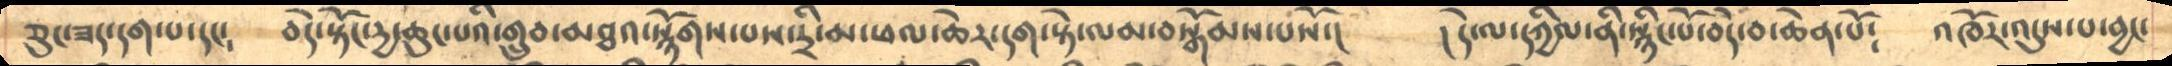ཅུང་ཟད་དག་པ་དང༴   བདེ་སྟོང་དྱ་ཆུང་པའི་གྲུབ་མཐའ་སྙོགས་པས་དྲི་མ་ཕལ་ཆེར་དག་སྟེ་ལམ་བསྒོམས་པསོ་།      ། དེ་ལ་དཀྱིལ་ནི་སྙིང་པོ་བདེ་བ་ཆེན་པོ༴   འཁོར་འདུས་པ་བྱང་
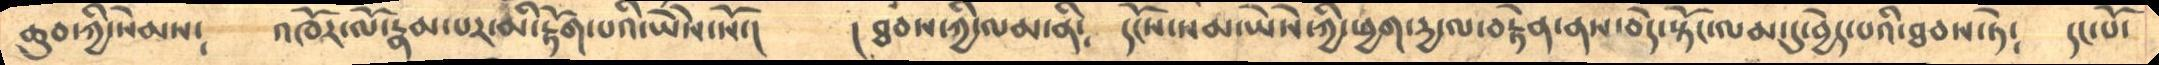ཆུབ་ཀྱི་སེམས༴   འཁོར་ལོ་རྣམ་པར་མི་རྟོག་པའི་ཡེསེ་སོ་།    ། ཐབས་ཀྱི་ལམ་ནི༴    དངོས་སམ་ཡེསེ་ཀྱི་ཕྱག་དྱུ་ལ་བརྟེན་ནས་བདེ་སྟོང་ལམ་དུ་བྱེད་པའི་ཐབས་ཏེ༴   དང་པོ་
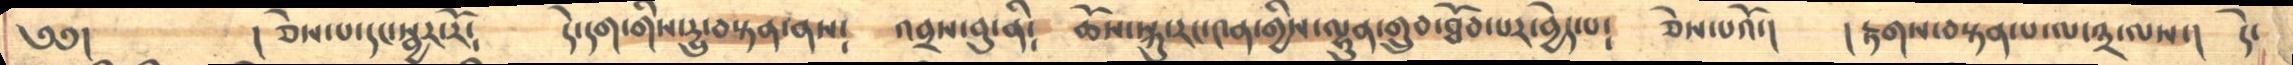༄༅།           ། ཅེས་པ་དང་སྦྱར་རོ༴    དེ་དག་གིས་དྱུ་བསྟན་ནས༴   འབྲས་བུ་ནི༴  ཆོས་སྐུ་རང་༤ན་གྱིས་ལྷུན་གྲུབ་ཐོབ་པར་བྱེད་པ༴  ཅེས་པའོ་།   ། རྟགས་བསྟན་པ་ལ་༣་ལས་།  དེ་
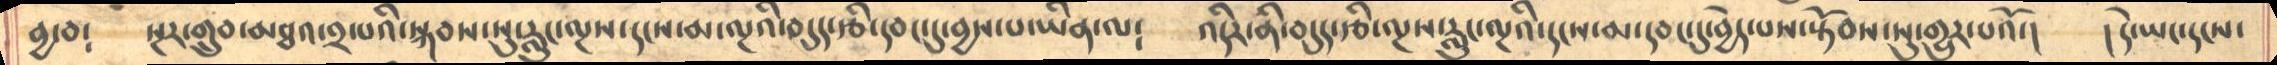བྱ་བ༴   སྔར་གྲུབ་མཐའ་༢་པའི་སྐབས་སུ་རླུང་ལྔས་དངས་མ་ལྔའི་བདུད་རྩི་དབང་དུ་བྱས་པ་ཡིན་ལ༴    འདིར་ནི་བདུད་རྩི་ལྔས་རླུང་ལྔའི་དངས་མ་དབང་དུ་བྱེད་པས་སྟོབས་སུ་གྱུར་པའོ་།    །དེ་ཡང་དངས་
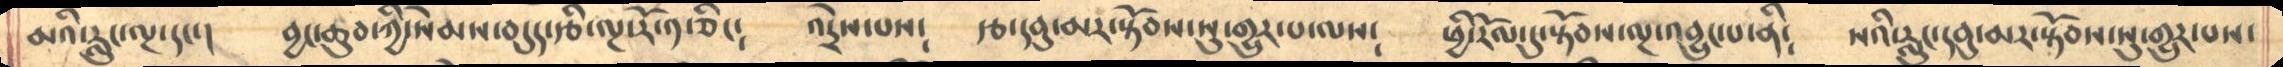མའི་རླུང་ལྔ་དང་།     བྱང་ཆུབ་ཀྱི་སེམས་བདུད་རྩི་ལྔ་རོ་༡་ཅིང༴    འདྲེས་པས༴    རྩ་དབུ་མར་སྟོབས་སུ་གྱུར་པ་ལས༴   ཕྱི་རོལ་དུ་སྟོབས་ལྔ་འབྱུང་པ་ནི༴  སའི་རླུང་དབུ་མར་སྟོབས་སུ་གྱུར་པས་
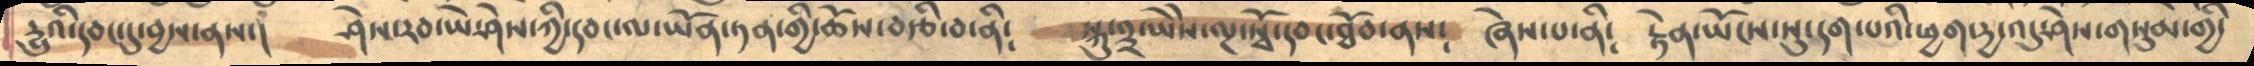དྱུའི་དབང་དུ་བྱས་ནས་།    ཤེས་རབ་ཡེ་ཤེས་ཀྱི་དབང་ལ་ཡོན་ཏན་གྱི་ཆོས་བརྩི་བ་ནི༴   སྐུ་༣་ཡེེས་ལྔ་སྭོ་དབང་ཐོབ་ནས༴    ཞེས་པ་ནི༴   རྟེན་ཡོངས་སུ་དག་པའི་ཕྱག་དྱ་འདུ་ཤེས་གསུམ་གྱི་
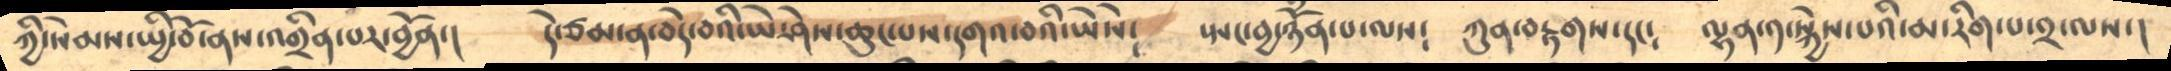ཀྱི་སེམས་སྤྱི་བོ་ནས་འགྲིན་པར་བྱོན་།   དེ་ཙམ་ན་བདེ་བའི་ཡེ་ཤེས་ཆུང་པས་དགའ་བའི་ཡེསེ༴    སྤང་བྱ་ཉོཾན་པ་ལས༴   ཀུན་བརྟགས་དང༴    ལྷན་༡་སྐྱེས་པའི་མ་རིག་པ་༢་ལས་།
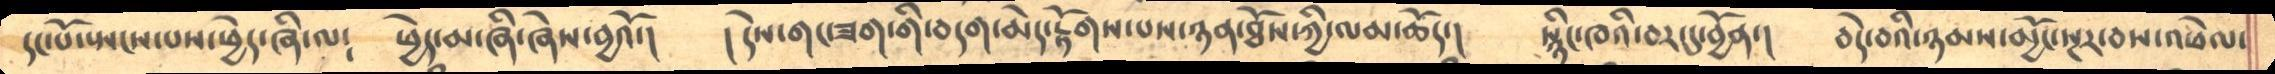དང་པོ་སྤང་པས་ཕྱེད་ཞི་ལ༴   ཕྱེད་མ་ཞི་ཞེས་བྱའོ་།   ། དེས་གང་ཟག་གི་བདག་མེད་རྟོགས་པས་ཉན་ཐོས་ཀྱི་ལམ་ཆོད་།   སྙིང་ཁའི་བར་དུ་བྱོན་།   བདེ་བའི་ཉམས་མྱོང་སྔར་བས་འཕེལ་
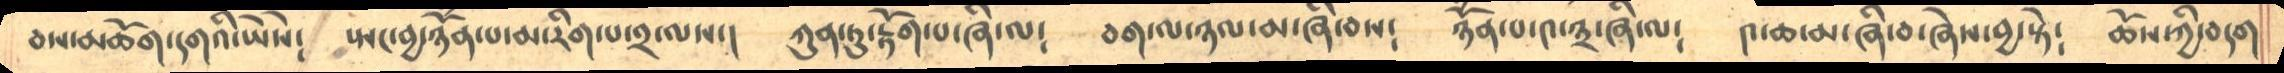བས་མཆོག་དགའི་ཡེསེ༴   སྤང་བྱ་ཉོཾན་པ་མ་རིག་པ་༢་ལས་།   ཀུན་ཏུ་རྟོག་པ་ཞི་ལ༴    བག་ལ་ཉལ་མ་ཞི་བས༴  ཉོཾན་པ་༤་༣་ཞི་ལ༴   ༤་ཆ་མ་ཞི་བ་ཞེས་བྱ་སྟེ༴   ཆོས་ཀྱི་བདག
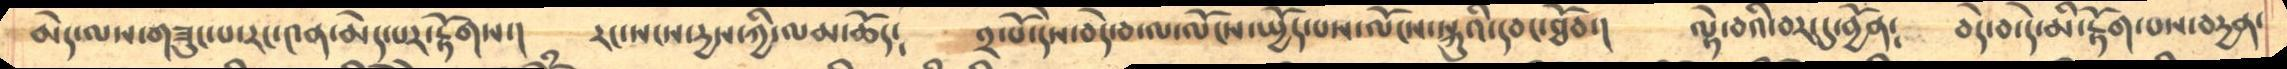མེད་ལས་གཟུང་པ་རང་༤ན་མེད་པར་རྟོགས་།    རང་སངསདྱས་ཀྱི་ལམ་ཆོད༴   ༢་པོ་དེས་བདེ་བ་ལ་ལོངས་སྤྱོད་པས་ལོངས་སྐུའི་དབང་ཐོབ་།   ལྟེ་བའི་བར་དུ་བྱོན༴   བདེ་བ་དེ་མི་རྟོག་པས་བདྱན་
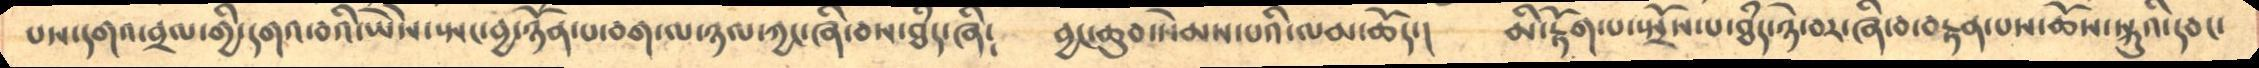པས་དགའ་བྲལ་གྱི་དགའ་བའི་ཡེསེ་སྤང་བྱ་ཉོཾན་པ་བག་ལ་ཉལ་ཀྱང་ཞི་བས་ཐྃད་ཞི༴   བྱང་ཆུབ་སེམས་པའི་ལམ་ཆོད་།   མི་རྟོག་པ་སྤྲོད་པ་ཐྃད་ཉེ་བར་ཞི་བ་བརྟན་པས་ཆོས་སྐུའི་དབང་
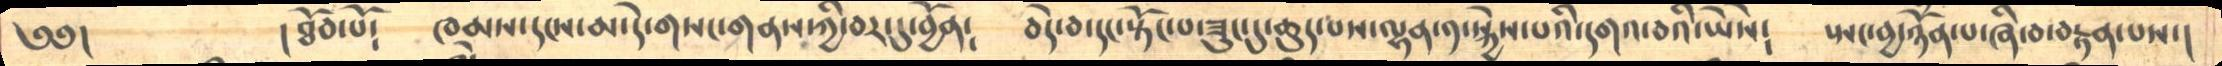༄༅།       ། ཐོབ་པོ༴    ཁམས་དངས་མ་དེ་གསང་གནས་ཀྱི་བར་དུ་བྱོན༴   བདེ་བ་དང་སྟོང་པ་ཟུང་དུ་ཆུད་པས་ལྷན་༡་སྐྱེས་པའི་དགའ་བའི་ཡེསེ༴    སྤང་བྱ་ཉོཾན་པ་ཞི་བ་བརྟན་པས་།
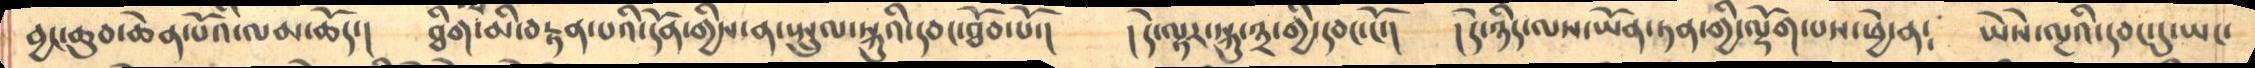བྱང་ཆུབ་ཆེན་པོའི་ལམ་ཆོད་།    ཐིག་མི་བརྟན་པའི་དོན་གྱིས་ན་སྤྲུལ་སྐུའི་དབང་ཐོབ་པོ་།    །དེ་ལྟར་སྐུ་༣་གྱི་དབང་ངོ་།   །དེ་ཉིད་ལས་ཡོན་ཏན་གྱི་ལྡོག་པས་ཕྱེ་ན༴    ཡེསེ་ལྔའི་དབང་དུ་ཡང་
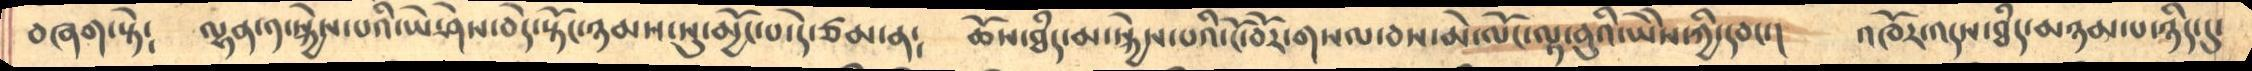བཞག་སྟེ༴    ལྷན་༡་སྐྱེས་པའི་ཡེ་ཤེས་བདེ་སྟོང་ཉམས་སུ་མྱོང་པ་དེ་ཙམ་ན༴    ཆོས་ཐཾད་མ་སྐྱེས་པའི་ངོ་བོར་གསལ་བས་མེ་ལོང་ལྟ་བུའི་ཡཻས་ཀྱི་དབང་།    འཁོར་འདས་ཐཾད་མཉམ་པ་ཉིད་དུ་
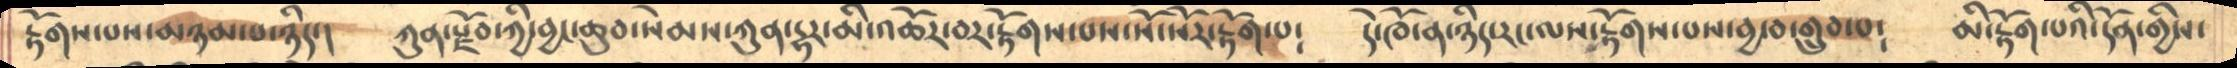རྟོགས་པས་མཉམ་པ་ཉིད་།     ཀུན་རྫོབ་ཀྱི་བྱང་ཆུབ་སེམས་ཀུན་དྷར་མི་འཆོར་བར་རྟོགས་པས་སོ་སོར་རྟོག་པ༴    དེ་ཁོ་ན་ཉིད་རང་ལས་རྟོགས་པས་བྱ་བ་གྲུབ་པ༴   མི་རྟོག་པའི་དོན་གྱིས་
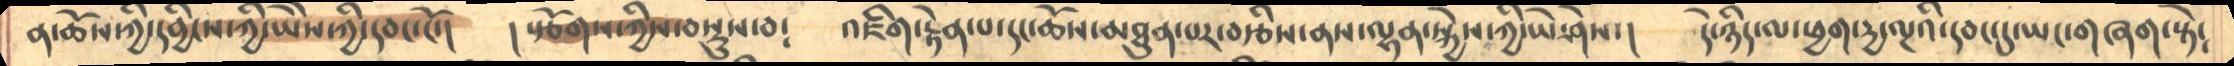ན་ཆོས་ཀྱི་དབྱིངས་ཀྱི་ཡཻས་ཀྱི་དབང་ངོ་།    ། སྩོགས་ཀྱིས་བསྡུས་བ༴    འཇིག་རྟེན་པ་དང་ཆོས་མཐུན་པར་བརྩིས་ནས་ལྷན་སྐྱེས་ཀྱི་ཡེ་ཤེས་།    དེ་ཉིད་ལ་ཕྱག་དྱ་ལྔའི་དབང་དུ་ཡང་གཞག་སྟེ༴
